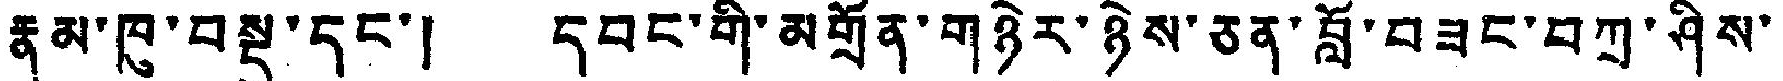རྣམ་ཁུ་བསྡུ་དང་། དབང་གི་མགྲོན་གཉེར་ཉེས་ཅན་བློ་བཟང་བཀྲ་ཤིས་
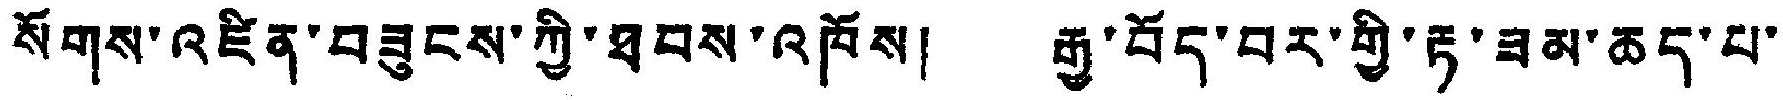སོགས་འཛིན་བཟུངས་ཀྱི་ཐབས་འཁོས། རྒྱ་བོད་བར་གྱི་རྟ་ཟམ་ཆད་པ་
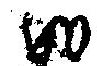40
